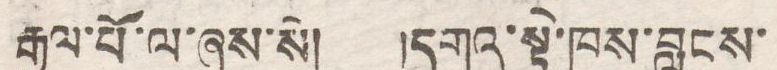རྒྱལ་པོ་ལ་ཞུས་སོ། །དགའ་སྟེ་ཁས་བླངས་
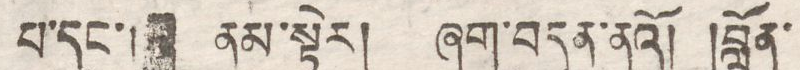པ་དང་། ནམ་སྟེར། ཞག་བདུན་ནའོ། །བློན་
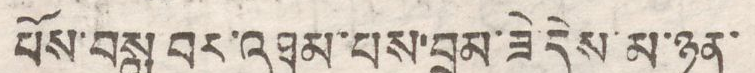པོས་བསླུ བར་འཐབ་པས་བྲམ་ཟེ་དེས་མ་ཉན་
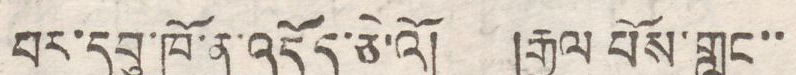པར་དབུ་ཁོ་ན་འདོད་ཅེ་འོ། །རྒྱལ པོས་གླང་་
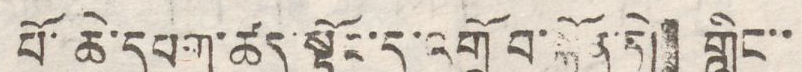པོ་ཆེ་དཔག་ཚད་སྟོང་དུ་འགྲོ བ་སྐྱོན་ཏེ། གླིང་་
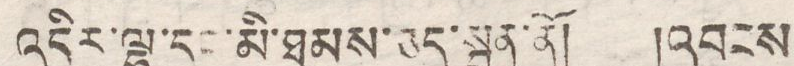འདིར་ལྷ་དང་མི་ཐམས་ཅད་སྦྲན་ནོ། །འབངས
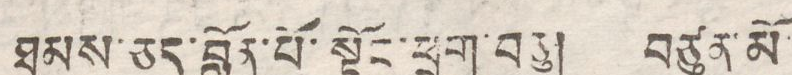ཐམས་ཅད་བློན་པོ་སྟོང་ཕྲན་བཅུ། བཙུན་མོ
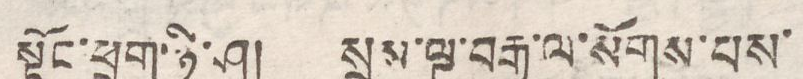སྟོང་ཕྲག་ཉི་ཤུ། སྲས་ལྔ་བརྒྱ་ལ་སོགས་པས་
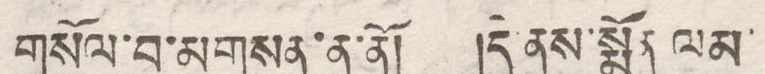གསོལ་བ་མ གསན་ན་ནོ། །དེ་ནས་སྨོན ལམ་
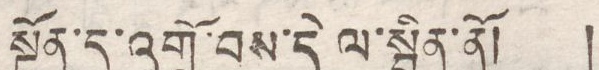སྔོན་དུ་འགྲོ་བས་དེ ལ་སྦྱིན་ནོ། །
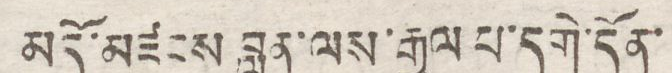མདོ་མཛངས བླུན་ལས་རྒྱལ པ་དགེ་དོན་
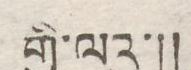གྱི་ལའུ་།།
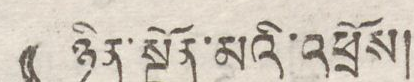(( ཉིན་སྔོན་མའི་འཕྲོས།
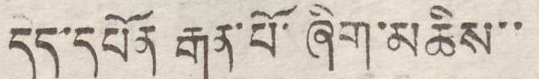དེད་དཔོན རྒན་པོ་ཞིག་མཆིས་་
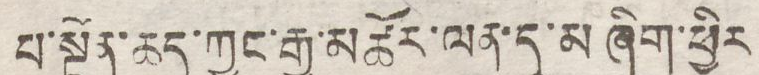པ་སྔོན་ཆད་ཀྱང་རྒྱ་མཚོར་ལན་དུ་མ ཞིག་ཕྱིར
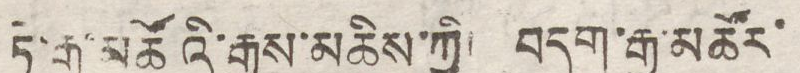ཏེ་རྒྱ་མཚོའི་རྒྱུས་མཆིས་ཀྱི། བདག་རྒྱ་མཚོར་
